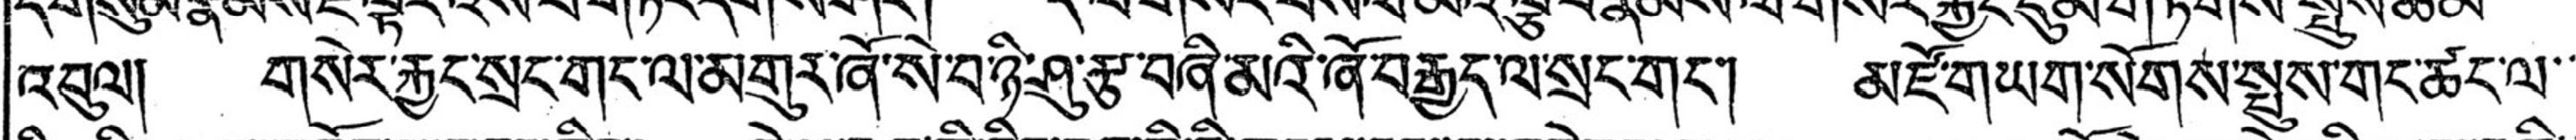འབུལ། གསེར་རྐྱང་སྲང་གང་ལ་མགུར་ཞོ་སེ་བ་ཉི་ཤུ་རྩ་བཞི་མའི་ཞོ་བརྒྱད་ལ་སྲང་གང་། མཛོ་གཡག་སོགས་སྤུས་གང་ཚང་ལ་་་
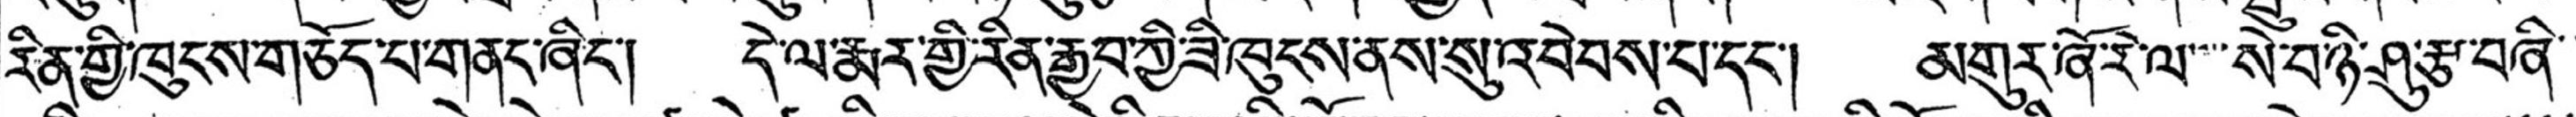རིན་གྱི་ཁུངས་གཅོད་པ་གནང་ཞིང་། དེ་ལ་རྨར་གྱི་རིན་རྒྱབ་ཀྱི་ཟི་ཁུངས་ནས་སུ་འབེབས་པ་དང་། མགུར་ཞོ་རེ་ལ་་་་སེ་བ་ཉི་ཤུ་རྩ་བཞི་་
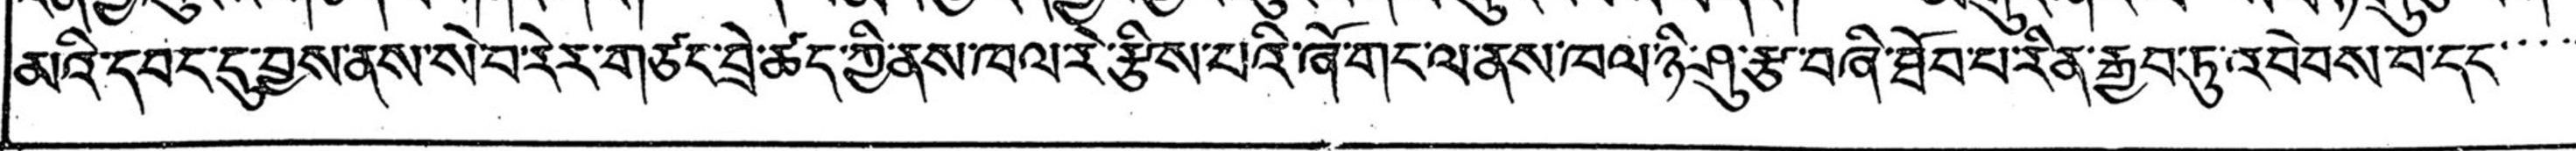མའི་དབང་དུ་བྱས་ནས་སེ་བ་རེར་གཙང་བྲེ་ཚད་ཀྱི་ནས་ཁལ་རེ་རྩིས་པའི་ཞོ་གང་ལ་ནས་ཁལ་ཉི་ཤུ་རྩ་བཞི་ཐོབ་པ་རིན་རྒྱབ་ཏུ་འབེབས་བ་དང་་་་་
